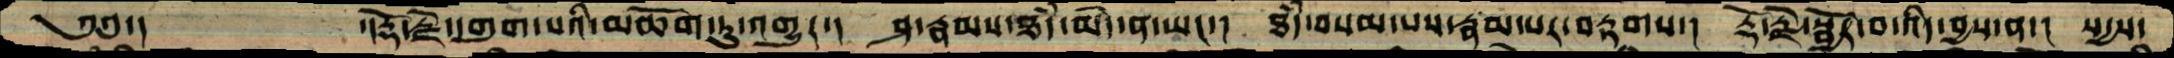༄༅་།    ་།རྡོ་རྗེ་འགུག་པའི་མཆོག་ཏུ་འགྱུར་།  ཤ་རྣམས་ཐཾད་མེད་ན་ཡང་།  ཐཾད་བསམ་པས་རྣམ་པར་བརྟགས་།  རྡོ་རྗེ་སྦྱོར་བ་འདི་བྱས་ན་།  སདྱས་
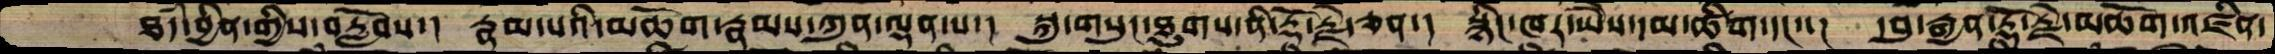ཐཾད་བྱིན་གྱིས་བརློབས་།  རྣམ་པའི་མཆོག་རྣམས་ཀུན་ལྡན་པ་།  སྐུ་གསུང་ཐུགས་ནི་རྡོ་རྗེ་ཅན་།  སྙིང་ཁར་ཡཻས་དམ་ཚིག་དང་་།  དབུ་རྒྱན་རྡོ་རྗེ་མཆོག་འཛིན་
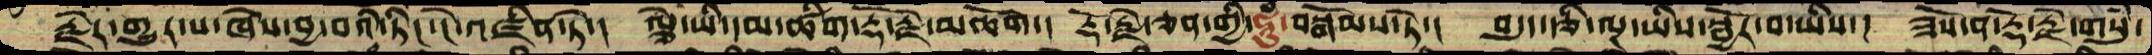རྗེར་གྱུར་པ་ཞེས་བྱ་བའི་ཏིང་ངེ་འཛིན་ཏེ་།  ལྕེ་ཡི་དམ་ཚིག་རྡོ་རྗེ་མཆོག་།  རྡོ་རྗེ་ཅན་གྱི་ཧཱུཾ་བསྒོམས་ཏེ་།  བདུད་རྩི་ལྔ་ཡིས་སྦྱོར་བ་ཡིས་།  ཟོས་ན་རྡོ་རྗེ་གསུཾ་
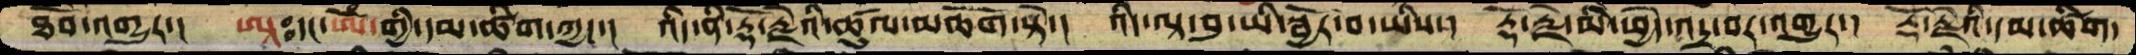ཐོབ་འགྱུར་།  ཨཱཿདང་ཨོཾ་གྱི་དམ་ཚིག་ཀྱང་།  འདི་ནི་རྡོ་རྗེའི་ཚུལ་མཆོག་སྟེ་།  འདི་ལྟ་བུ་ཡི་སྦྱོར་བ་ཡིས་།  རྡོ་རྗེ་མི་ཕྱེད་འདྲ་བར་འགྱུར་།  རྡོ་རྗེའི་དམ་ཚིག་
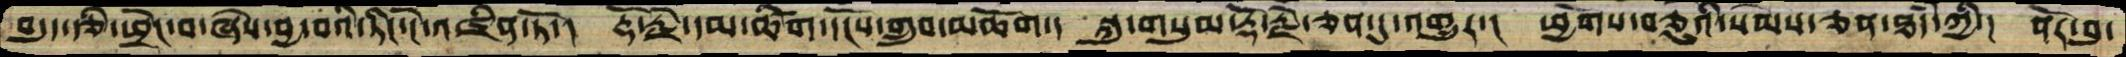བདུད་རྩི་ཕྲེང་བ་ཞེས་བྱ་བའི་ཏིང་ངེ་འཛིན་ཏོ་།  རྡོ་རྗེ་དམ་ཚིག་དངོས་གྲུབ་མཆོག་།  སྐུ་གསུམ་རྡོ་རྗེ་ཅན་དུ་འགྱུར་།  ཕྱོགས་བཅུའི་སེམས་ཅན་ཐཾད་ཀྱི་།  ནོར་བུ་
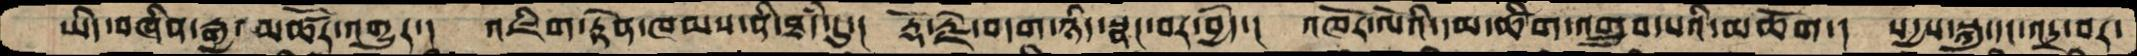ཡིད་བཞིན་རྒྱ་མཚོར་འགྱུར་།  འཇིག་རྟེན་ཁམས་ནི་ཐཾད་དུ་།  རྡོ་རྗེ་བདག་ཉིད་སྣང་བར་བྱེད་།  འཁོར་ལོའི་དམ་ཚིག་འགྲུབ་པའི་མཆོག་།  སདྱས་སྐུ་དང་འདྲ་བར་
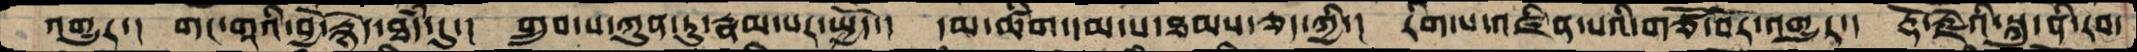འགྱུར་།  གང་གཱའི་བྱེ་རྙེད་ཐཾད་དུ་།  གྲུབ་པ་ཀུན་ཏུ་རྣམ་པར་སྤྱོད་།  དམ་ཚིག་དམ་པ་ཐམས་ཅད་ཀྱི་།  རིག་པ་འཛིན་པའི་གཙོ་བོར་འགྱུར་།  རྡོ་རྗེའི་སྐུ་ནི་རབ་
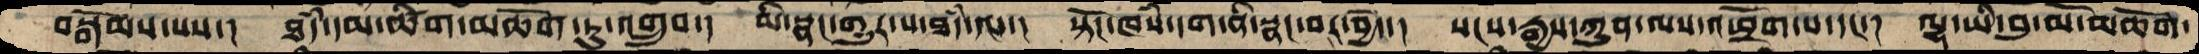བསྒོམས་པས་།  ཐཾད་དམ་ཚིག་མཆོག་ཏུ་འགྲུབ་།  མི་སྣང་འགྱུར་པ་ཐཾད་ལ་།  སྟོང་ཁཾས་དག་ནི་སྣང་བར་བྱེད་།  སངས་རྒྱས་ཀུན་ལས་འཕྲོག་པ་དང་།  ལྷ་ཡི་བུ་མོ་མཆོག་
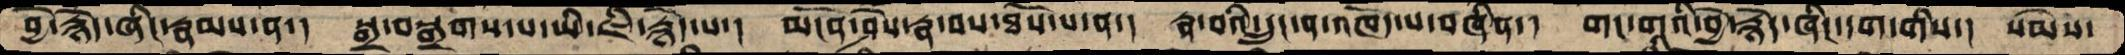བྱེ་རྙེད་ཞིང་རྣམས་ན་།  སྒྲ་བསྒྲགས་པ་ཡི་ཇི་རྙེད་པ་།  མངོན་ཤེས་རྣ་བས་ཐོས་པ་ན་།  རྣ་བའི་དྲུང་ན་འཁོད་པ་བཞིན་།  གང་གཱའི་བྱེ་རྙེད་ཞིང་དག་གིས་།  སེམས་
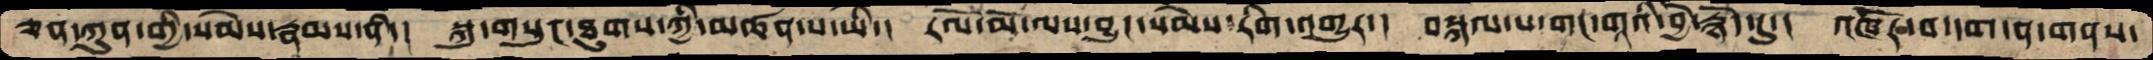ཅན་ཀུན་གྱི་སེམས་རྣམས་ནི་།  སྐུ་གསུང་ཐུགས་ཀྱི་མཚན་པ་ཡི་།  རོལ་མོ་ལས་བྱུང་སེམས་རིག་འགྱུར་།  བསྐལ་པ་གང་གཱའི་བྱེ་རྙེད་དུ་།  འཁོར་བ་དག་ན་གནས་
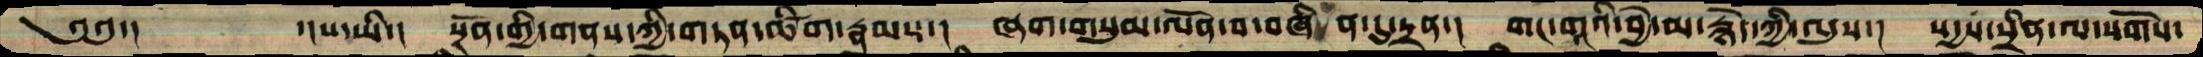༄༅་།         ་།ས་ཡི་།  སྔོན་གྱི་གནས་ཀྱི་གཏན་ཚིག་རྣམས་།  ཞག་གསུམ་ལོན་པ་བཞི ན་དུ་དྲན་།  གང་གཱའི་བྱེ་མ་རྙེད་ཀྱི་ལུས་།  སདྱས་སྲིན་ལ་སོགས་
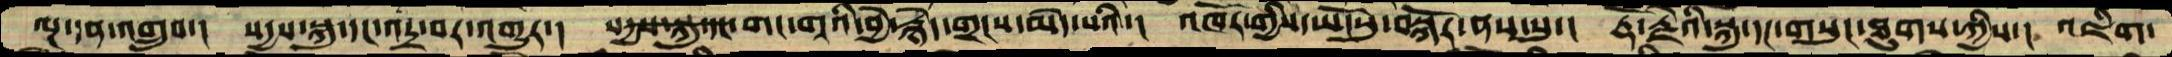ལྔ་དན་འགྲུབ་།  སདྱས་སྐུ་དང་འདྲ་བར་འགྱུར་།  སདྱས་སྐུ་དང་གང་གཱའི་བྱེ་རྙེད་གྲངས་མེད་པའི་།  འཁོར་གྱིས་ཡོངསུ་བསྐོར་ནས་སུ་།  རྡོ་རྗེའི་སྐུ་དང་གསུང་ཐུགས་ཀྱིས་།  འཇིག་
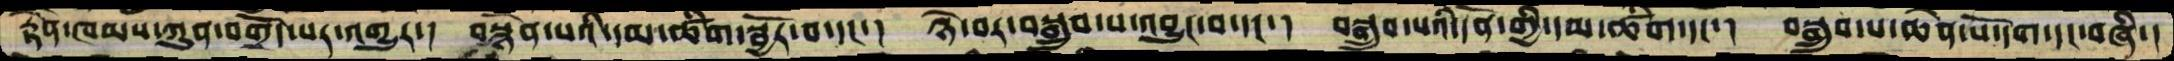རྟེན་ཁམས་ཀུན་བགྲོད་པར་འགྱུར་། བསྙེན་པའི་དམ་ཚིག་སྦྱོར་བ་དང་།  ཉེ་བར་བསྒྲུབ་པ་འབྱུང་བ་དང་།  བསྒྲུབ་པའི་དོན་གྱི་དམ་ཚིག་དང་།  བསྒྲུབ་པ་ཆེན་པོ་དག་དང་བཞི་།
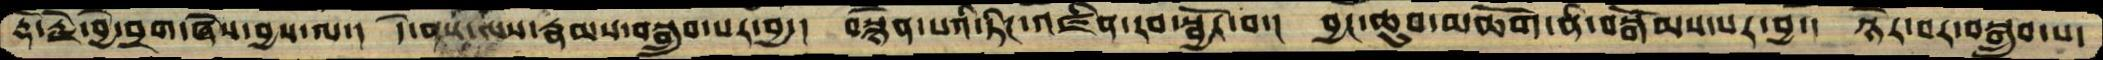རྡོ་རྗེ་བྱེ་བྲག་ཞེས་བྱས་ལ་།  དེ་ནས་ལས་རྣམས་བསྒྲུབ་པར་བྱ་།  བསྙེན་པའི་ཏིང་འཛིན་རབ་སྦྱོར་བ་།  བྱང་ཆུབ་མཆོག་ནི་བསྒོམས་པར་བྱ་།  ཉེར་བར་བསྒྲུབ་པ་
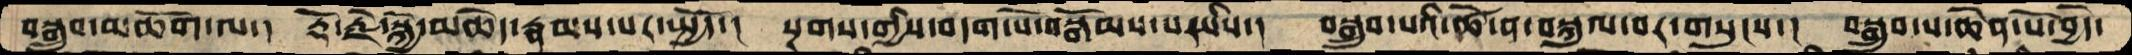བསྒྲུབ་མཆོག་ལ་།  རྡོ་རྗེ་སྐྱེ་མཆེད་རྣམས་པར་སྤྱོད་།  སྔགས་གྱིས་བདག་པོ་བསྒོམས་པ་ཡིས་།  བསྒྲུབ་པའི་ཚེ་ན་བསྐུལ་བར་གསུངས་།  བསྒྲུབ་པ་ཆེན་པོ་བྱེད་
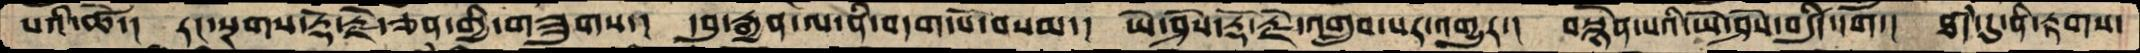པའི་ཚེ་།  རང་སྔགས་རྡོ་རྗེ་ཅན་གྱི་གཟུགས་།  དབུ་རྒྱན་ལ་ནི་བདག་པོ་བསམ་།  ཡེ་ཤེས་རྡོ་རྗེ་འགྲུབ་པར་འགྱུར་།  བསྙེན་པའི་ཡེ་ཤེས་བདུདརྩི་དགོ་།  ཐཾད་དུ་ནི་རྟགས་
